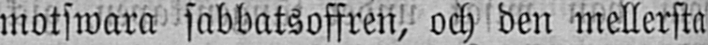motswara sabbatsoffren, och den mellersta
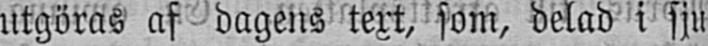utgöras af dagens text, som, delad i sju
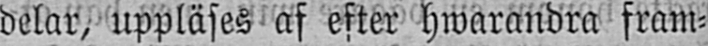delar, uppläses af efter hwarandra fram-
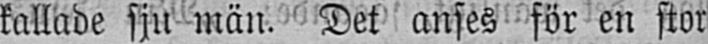kallade sju män. Det anses för en stor
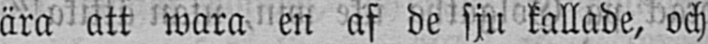ära att wara en af de sju kallade, och
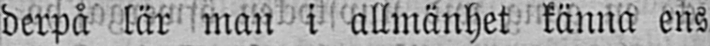derpå lär man i allmänhet känna ens
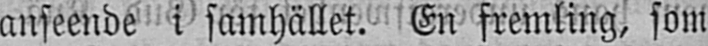anseende i samhället. En fremling, som
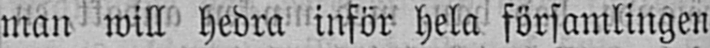man will hedra inför hela församlingen
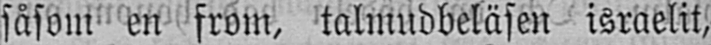såsom en from, talmudbeläsen israelit,
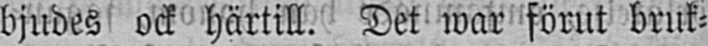bjudes ock härtill. Det war förut bruk-
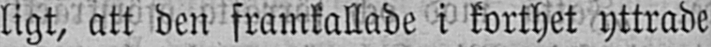ligt, att den framkallade i korthet yttrade
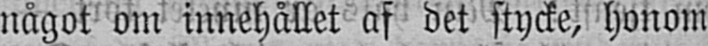något om innehållet af det stycke, honom
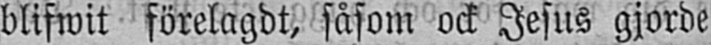blifwit förelagdt, såsom ock Jesus gjorde
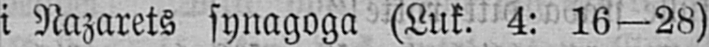i Nazarets synagoga (Luk. 4: 16—28)
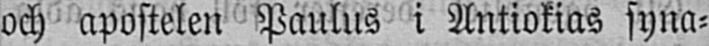och apostelen Paulus i Antiokias syna-
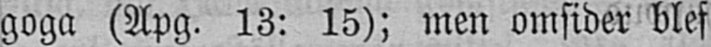goga (Apg. 13: 15); men omsider blef
